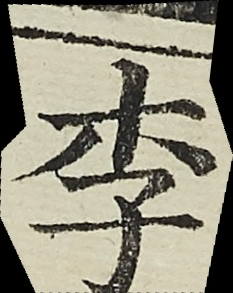李
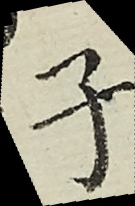子
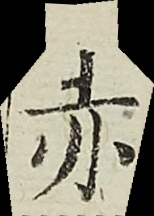赤
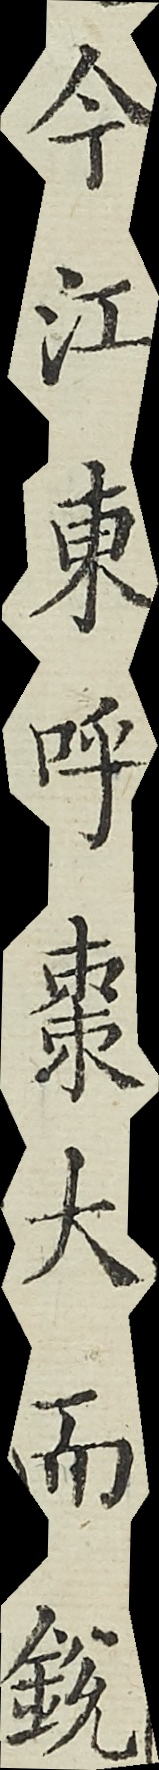今江東呼棗大而銳
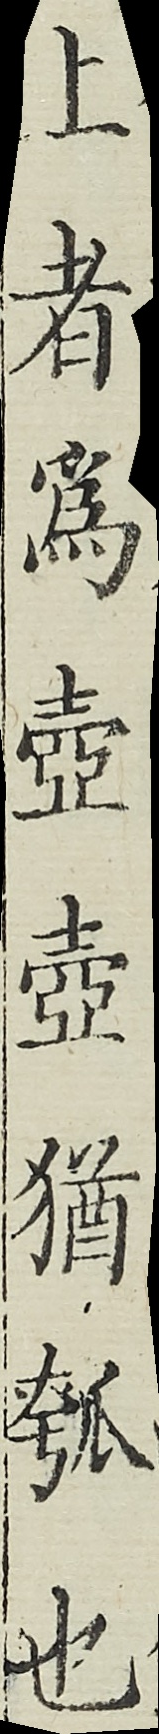上者為壺壺猶瓠也
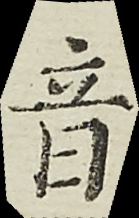音
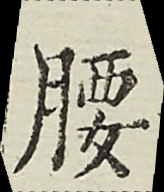腰
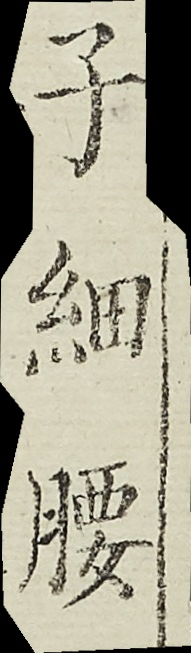子細腰
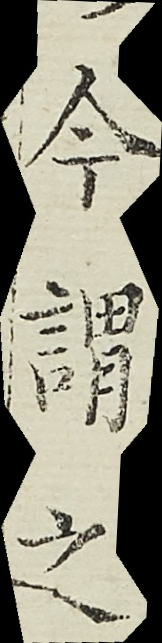今謂之
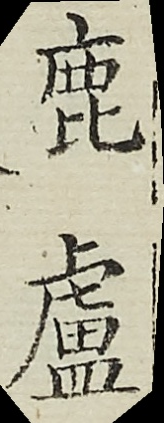鹿盧
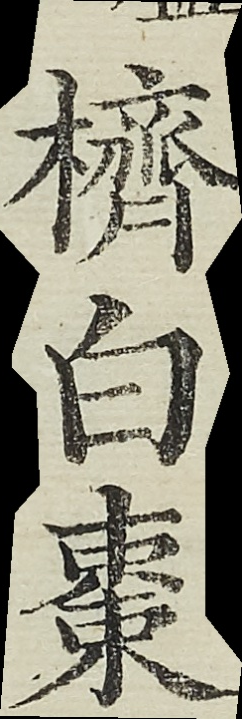櫅白棗
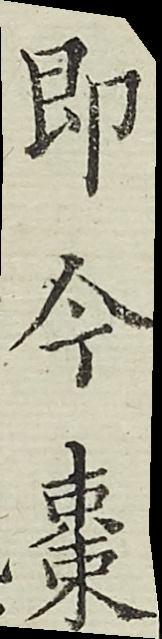即今棗
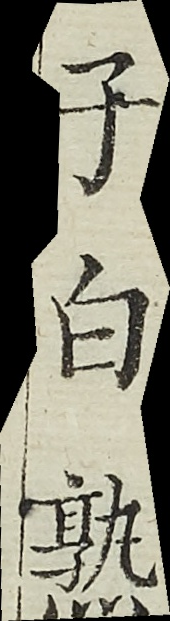子白熟
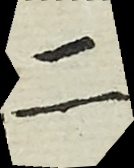二
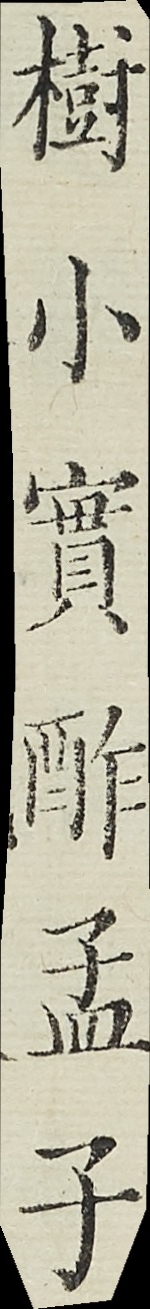樹小實酢孟子
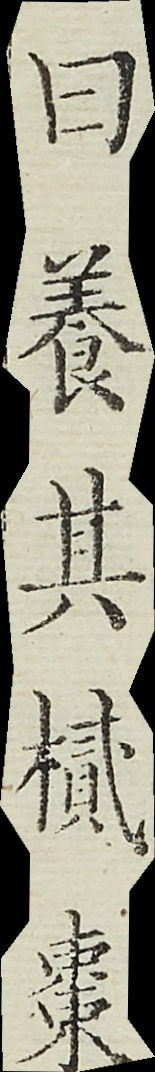曰養其樲棗
